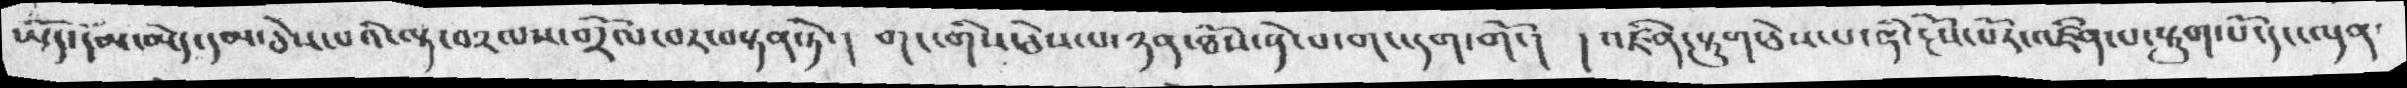ཡོད་དམ་མེད་དམ་ཅེས་པའི་ལྟ་བ༢ལས་གྲོལ་བར་བསྟན་ཏེ་།  གང་གིས་ཅེས་པ་ཉན་ཐོས་སྡེ་པ་གང་དག་གོ་།  །འཛིན་སྟུག་ཅེས་པ་ནི་རྔོས་པོར་འཛིན་པ་སྟུག་པོ་དང་ལྡན་
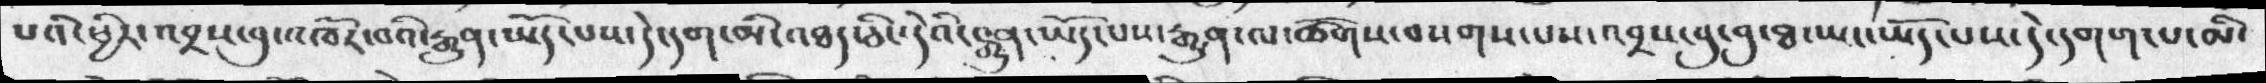པའི་ཕྱིར་འབྲས་བུ་འཁོར་བའི་རྒྱུན་ཡོད་པས་དེ་དག་མི་འཐད་ཅིང་དེའི་རྒྱུན་ཡོད་པས་རྒྱུན་ལ་ཚོགས་བསགས་པས་འབྲས་བུ་ཐ་ཡང་ཡོད་པས་དེ་དགག་པ་མི་
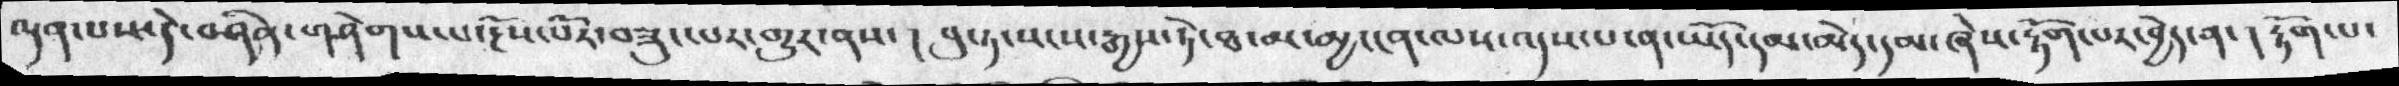ལྡན་པས་དེ་བཞིན་གཤེགས་པ་རྔོས་པོར་བཟུང་པར་གྱུར་ནས་།  བུ་ཏ་སངས་རྒྱས་ཏེ་ཐ་མ་མྱ་ངན་ལས་འདས་པ་ན་ཡོད་དམ་མེད་དམ་ཞེས་རྟོག་པར་བྱེད་ན་།  རྟོག་པ་
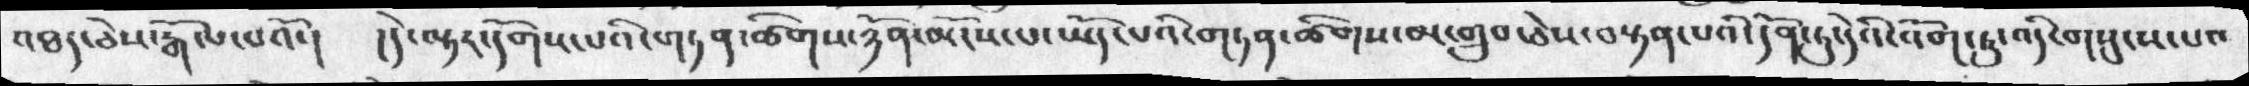འཐད་ཅེས་རྒོལ་པའོ་།  །དེ་ལྟར་དོགས་པའི་གཏན་ཚིགས་ཉོན་མོངས་པ་ཡོད་པའི་གཏན་ཚིགས་མ་གྲུབ་ཅེས་བསྟན་པའི་དོན་དུ་དེའི་འོག་ཏུ་འདི་གསུངས་པ་
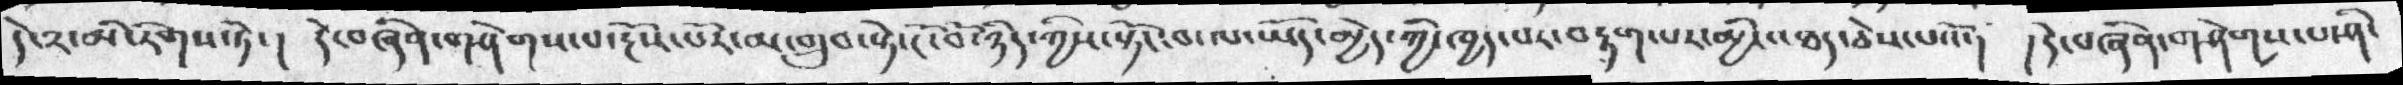དེ་༢་མི་རིགས་ཏེ་། དེ་བཞིན་གཤེགས་པ་རྔོས་པོར་མ་གྲུབ་སྟེ་ངོ་བོ་ཉིད་ཀྱིས་སྟོང་བ་ལ་ཡོད་མྱེད་ཀྱི་ཁྱད་པར་བརྟག་པར་མྱི་འཐད་ཅེས་པའོ་།  །དེ་བཞིན་གཤེགས་པ་ནི་
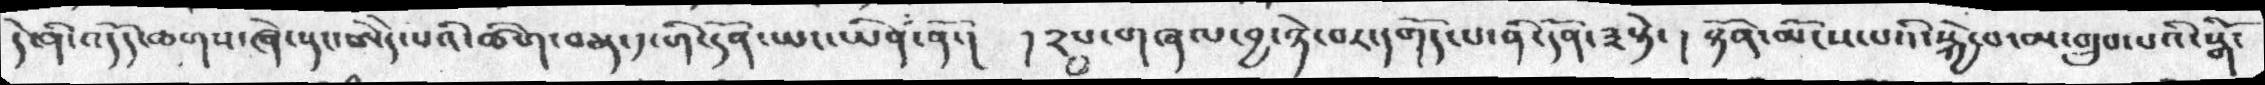དེ་ནི་འདོད་ཆགས་ཞེ་སྡང་ཨེདེ་པའི་ཚིག་བཅད་༡་གི་དོན་ཡང་ཡིན་ནོ་།  །༢པ་གཞལ་བྱ་ཉེ་བར་དགོད་པ་ནི་དོན་༣སྟེ་། ཉོན་མོངས་པའི་སྐྱེ་བ་མ་གྲུབ་པའི་སྒོ་
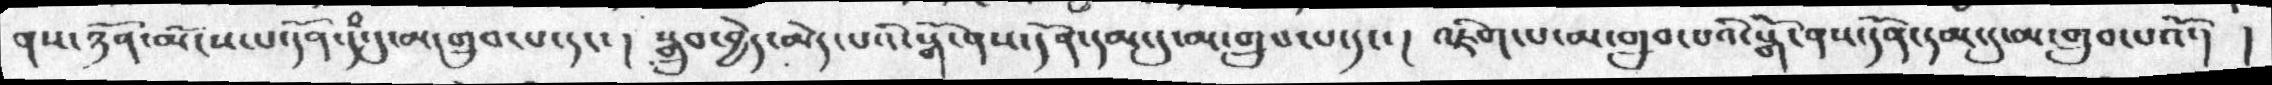ནས་ཉོན་མོངས་པ་དོན་དཾ་དུ་མ་གྲུབ་པ་དང་། སྒྲུབ་བྱེད་མེད་པའི་སྒོ་ནས་དོན་དམ་དུ་མ་གྲུབ་པ་དང་། འཇིག་པ་མ་གྲུབ་པའི་སྒོ་ནས་དོན་དམ་དུ་མ་གྲུབ་པའོ་། །
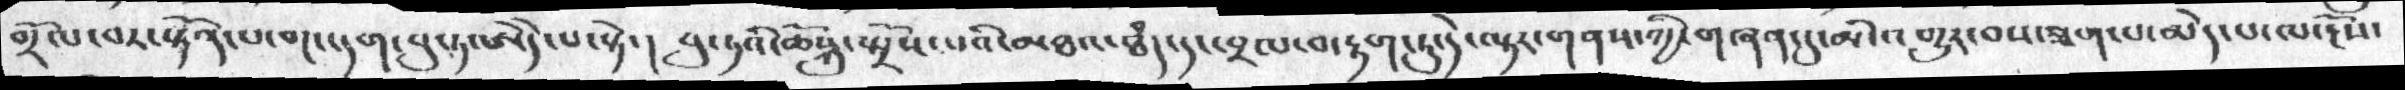གྲོལ་བར་སྟོན་པ་གང་དག་བུ་ཏ་ཨེདེ་པ་སྟེ་། བུ་ཏའི་ཆོསྐུ་སྤྲོས་པའི་མཐའ་ཐཾད་དང་བྲལ་བ་རྟག་ཏུ་དེ་ལྟར་གནས་ཀྱི་གཞན་དུ་མི་འགྱུར་བས་ཟག་པ་མེད་པ་ལ་རྔོས་
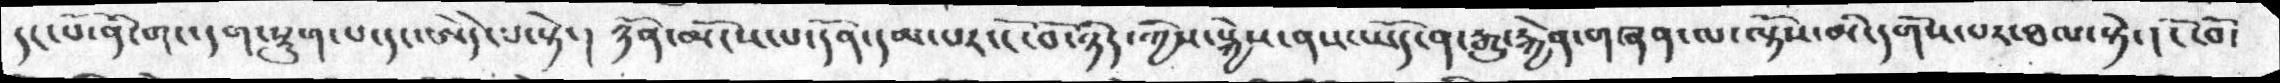དང་པོ་ནི་གང་དག་སྡུག་པ་དང་ཨེདེ་པ་སྟེ་། ཉོན་མོངས་པ་དོན་དམ་པར་ངོ་བོ་ཉིད་ཀྱིས་སྐྱེས་ནས་ཡོད་ན་རྒྱུ་རྐྱེན་གཞན་ལ་ལྟོས་མི་དགོས་པར་ཐལ་སྟེ་། ངོ་བོ་
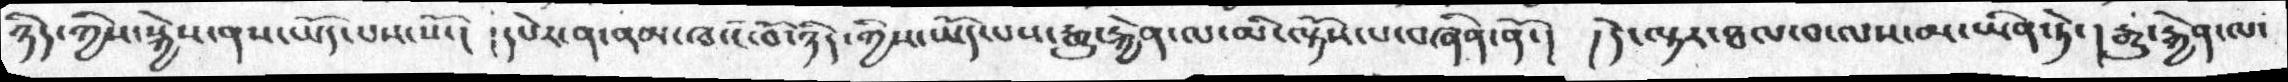ཉིད་ཀྱིས་སྐྱེས་ནས་ཡོད་པས་སོ་། །དཔེར་ན་ནམ་ཁ་ངོ་བོ་ཉིད་ཀྱིས་ཡོད་པས་རྒྱུ་རྐྱེན་ལ་མི་ལྟོས་པ་བཞིན་ནོ་།  །དེ་ལྟར་ཐལ་བ་ལས་མ་ཡིན་ཏེ་། རྒྱུ་རྐྱེན་ལ་
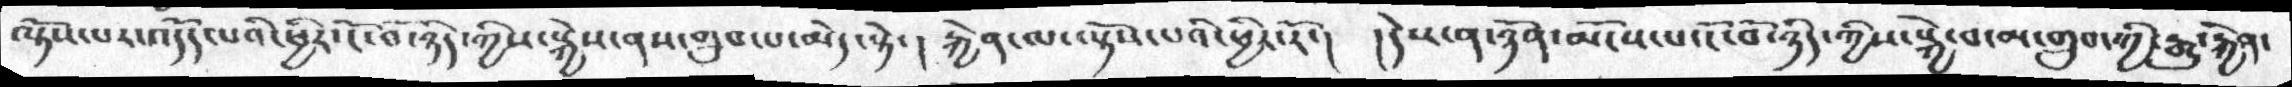ལྟོས་པར་འདོད་པའི་ཕྱིར་ངོ་བོ་ཉིད་ཀྱིས་སྐྱེས་ནས་གྲུབ་པ་མེད་སྟེ་། རྐྱེན་ལ་ལྟོས་པའི་ཕྱིར་རོ་།  །དེས་ན་ཉོན་མོངས་པ་ངོ་བོ་ཉིད་ཀྱིས་སྐྱེ་བ་མ་གྲུབ་ཀྱི་རྒྱུ་རྐྱེན་
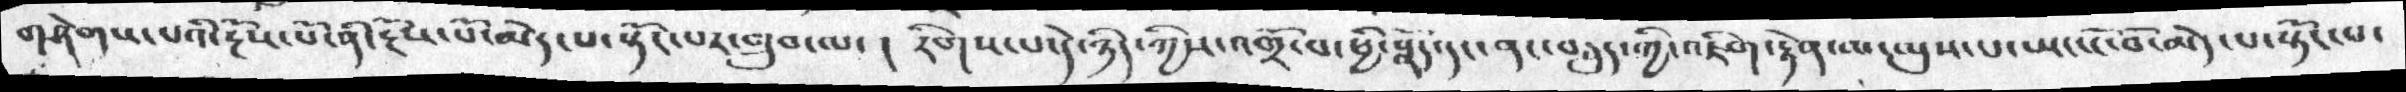གཤེགས་པའི་རྔོས་པོ་ནི་རྔོས་པོ་མེད་པ་སྟོང་པར་གྲུབ་ལ་།  རིགས་པ་དེ་ཉིད་ཀྱིས་འགྲོ་བ་ཕྱི་སྣོད་དང་ནང་བཅུད་ཀྱི་འཇིག་རྟེན་མ་ལུས་པ་ཡང་ངོ་བོ་མེད་པ་སྟོང་པ་
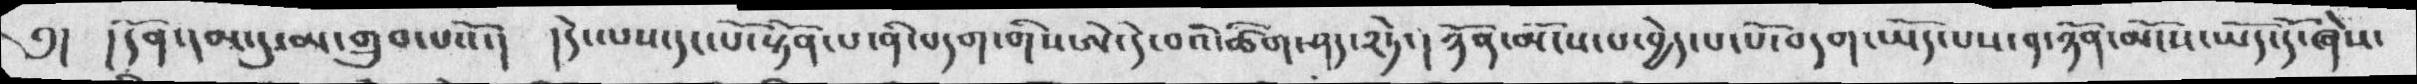༅།  །དོན་དམ་དུ་མ་གྲུབ་པའོ་།  །དེ་ལས་དང་པོ་སྟོན་པ་ནི་བདག་གིས་ཨེ་དེ་བའི་ཚིག་ཤད་༢ཏེ་། ཉོན་མོངས་པ་བྱེད་པ་པོ་བདག་ཡོད་པས་༡་ཉོན་མོངས་ཡོད་དོ་ཞེས་
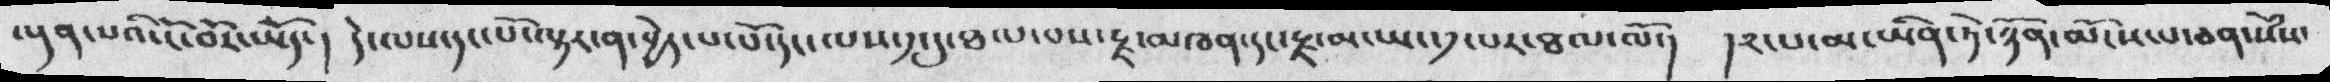ལྡན་པའི་ངོ་བོར་ཡོད་། དེ་ལས་དང་པོ་ལྟར་ན་བྱེད་པ་པོ་དང་ལས་༡་དུ་ཐལ་པས་རྗ་མཁན་དང་རྗ་མ་ཡང་༡་པར་ཐལ་ལོ་།  །༢་པ་མ་ཡིན་ཏེ་ཉོན་མོངས་པ་ཅན་སེཾས་
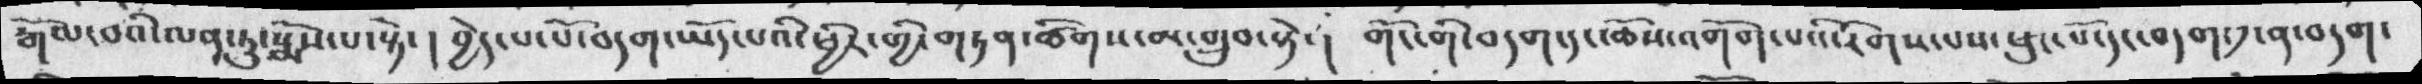རྒོལ་བའི་ལན་ཏུ་སྨོས་པ་སྟེ་ །  བྱེད་པ་པོ་བདག་ཡོད་པའི་ཕྱིར་གྱི་གཏན་ཚིགས་མ་གྲུབ་སྟེ་།  གོང་གི་བདག་དང་ཆོས་འགོག་པའི་རིགས་པས་ཕུང་པོ་དང་བདག་༡་ན་བདག་
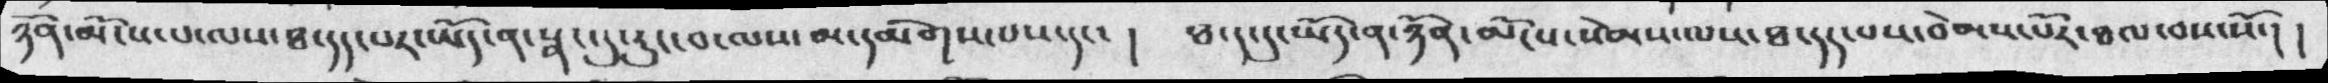ཉོན་མོངས་པ་ལས་ཐ་དད་པར་ཡོད་ན་སྣང་དུ་རུང་བ་ལས་མ་དམིགས་པས་དང་།  ཐ་ད་དུ་ཡོད་ན་ཉོན་མོངས་སེམས་ལས་ཐ་དད་པས་བེམས་པོར་ཐལ་བས་སོ་། །
